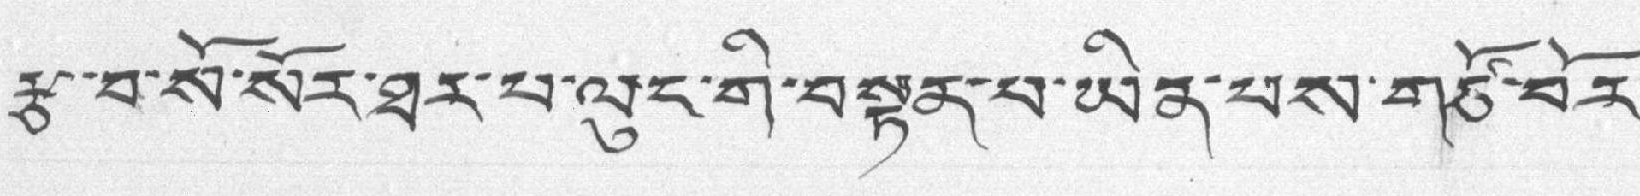རྩ་བ་སོ་སོར་ཐར་པ་ལུང་གི་བསྟན་པ་ཡིན་པས་གཙོ་བོར་
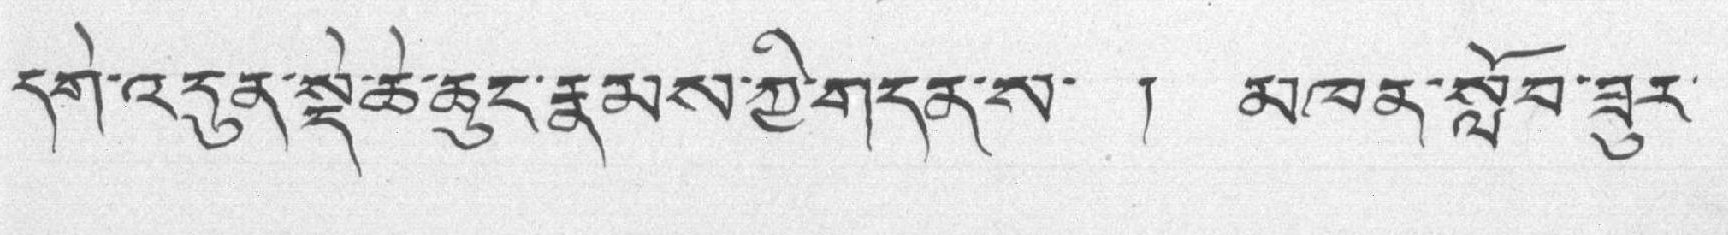དགེ་འདུན་སྡེ་ཆེ་ཆུང་རྣམས་ཀྱི་གདན་ས་ ། མཁན་སློབ་ཟུར་
